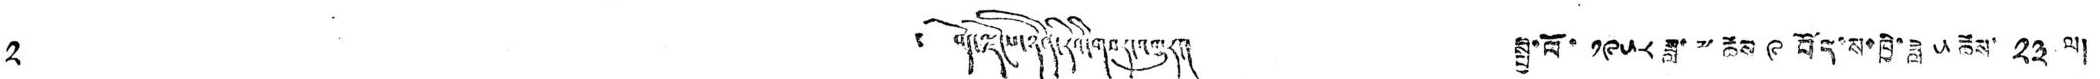༢ ༄ བོད་ལྗོངས་ཉིན་རེའི་གསར་འགྱུར། སྤྱི་ལོ་ ༡༩༥༨ ཟླ་ ༧ ཚེས་ ༩ བོད་ས་ཁྱི་ཟླ་ ༥ ཚེས་ ༢༣ ལ།
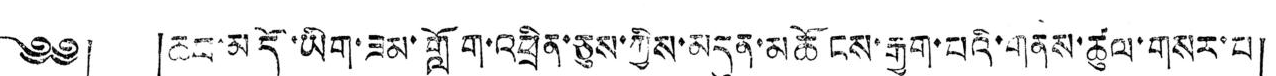༄༅། །ཆབ་མདོ་ཡིག་ཟམ་གློག་འཕྲིན་ཅུས་ཀྱིས་མདུན་མཆོངས་རྒྱག་པའི་གནས་ཚུལ་གསར་པ།
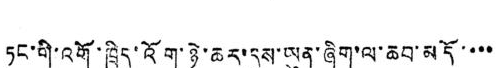ཏང་གི་འགོ་ཁྲིད་འོག་ཉེ་ཆར་དུས་ཡུན་ཞིག་ལ་ཆབ་མདོ་་་་
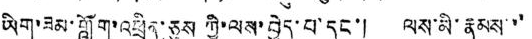ཡིག་ཟམ་གློག་འཕྲིན་ཅུས ཀྱི་ལས་བྱེད་པ་དང་། ལས་མི་རྣམས་་
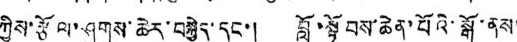ཀྱིས་རྩོལ་ཤུགས་ཆེར་བསྐྱེད་དང་། བློ་སྟོབས་ཆེན་པོའི་སྒོ་ནས་
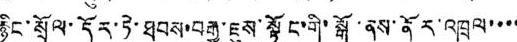རྙིང་སྲོལ་དོར་ཏེ་ཐབས་བརྒྱ་ཇུས་སྟོང་གི་སྒོ་ནས་ནོར་འཁྲུལ་་་་
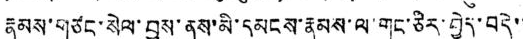རྣམས་གཙང་སེལ་བྱས་ནས་མི་དམངས་རྣམས་ལ་གང་ཅིར་བྱེད་བདེ་་
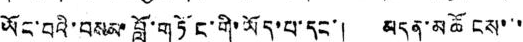ཡོང་བའི་བསམ་བློ་གཏོང་གི་ཡོད་པ་དང་། མདུན་མཆོངས་་་
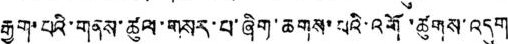རྒྱག་པའི་གནས་ཚུལ་གསར་པ་ཞིག་ཆགས་པའི་འགོ་ཚུགས་འདུག
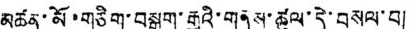མཚན་མོ་གཅིག་བསྒུག་རྒྱུའི་གནས་ཚུལ་དེ་བསལ་བ།
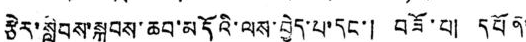རྩེར་སླེབས་སྐབས་ཆབ་མདོའི་ལས་བྱེད་པ་དང་། བཟོ་པ། དཔོན་
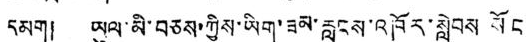དམག། ཡུལ་མི་བཅས་ཀྱིས་ཡིག་ཟམ་རླངས་འཁོར་སླེབས སོང་
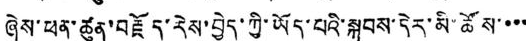ཞེས་ཕན་ཚུན་བརྗོད་རེས་བྱེད་ཀྱི་ཡོད་པའི་སྐབས་དེར་མི་ཚོས་་་་
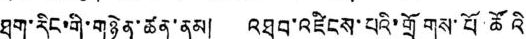ཐག་རིང་གི་གཉེན་ཚན་ནམ། འཐབ་འཛིངས་པའི་གྲོགས་པོ་ཚོའི
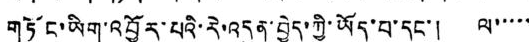གཏོང་ཡིག་འབྱོར་པའི་རེ་འདུན་བྱེད་ཀྱི་ཡོད་པ་དང་། ལ་་་་་
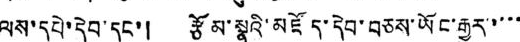ལས་དཔེ་དེབ་དང་། རྩོམ་སྣའི་མཛོད་དེབ་བཅས་ཡོང་རྒྱུར་་་་་
